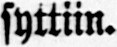syttiin.
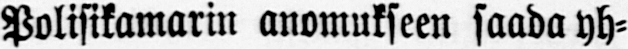Polisikamarin anomukseen saada yh-
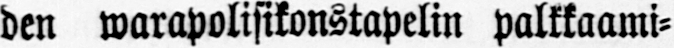den warapolisikonstapelin palkkaami-
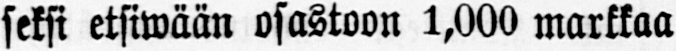seksi etsiwään osastoon 1,000 markkaa
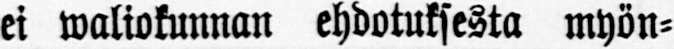ei waliokunnan ehdotuksesta myön-
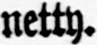netty.
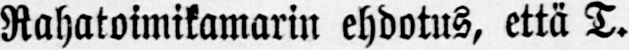Rahatoimikamarin ehdotus, että T.
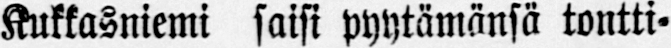Kukkasniemi saisi pyytämänsä tontti-
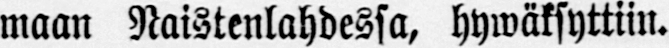maan Naistenlahdessa, hywäksyttiin.
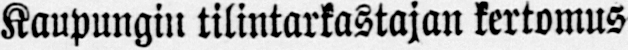Kaupungin tilintarkastajan kertomus
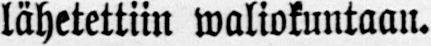lähetettiin waliokuntaan.
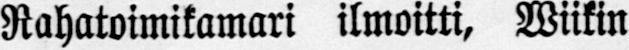Rahatoimikamari ilmoitti, Wiikin
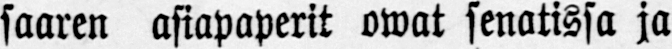saaren asiapaperit owat senatissa ja
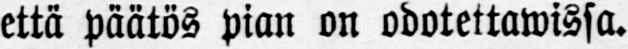että päätös pian on odotettavissa.
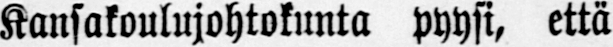Kansakoulujohtokunta pyysi, että
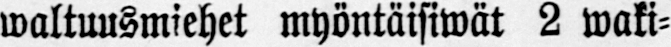waltuusmiehet myöntäisiwät 2 waki-
